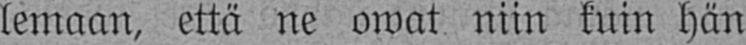lemaan, että ne owat niin kuin hän
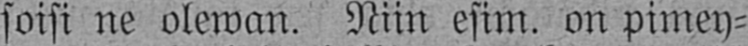soisi ne olewan. Niin esim. on pimey-
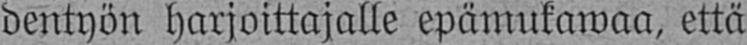dentyön harjoittajalle epämukawaa, että
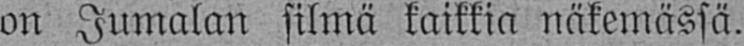on Jumalan silmä kaikkia näkemässä.
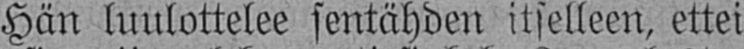Hän luulottelee sentähden itselleen, ettei
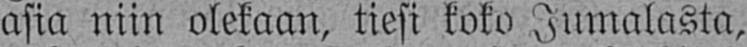asia niin olekaan, tiesi koko Jumalasta,
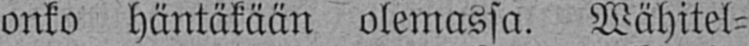onko häntäkään olemassa. Wähitel-
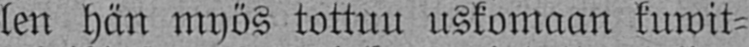len hän myös tottuu uskomaan kuwit-
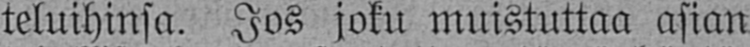teluihinsa. Jos joku muistuttaa asian
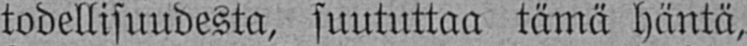todellisuudesta, suututtaa tämä häntä,
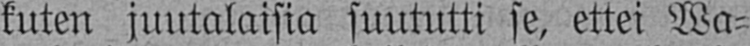kuten juutalaisia suututti se, ettei Wa-
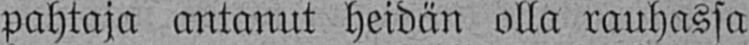pahtaja antanut heidän olla rauhassa
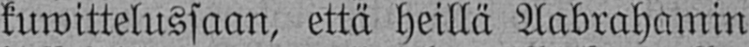kuwittelussaan, että heillä Aabrahamin
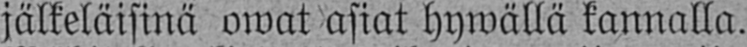jälkeläisinä owat asiat hywällä kannalla.
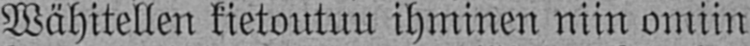Wähitellen kietoutuu ihminen niin omiin
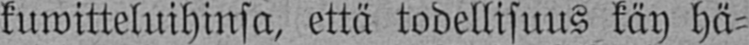kuwitteluihinsa, että todellisuus käy hä-
